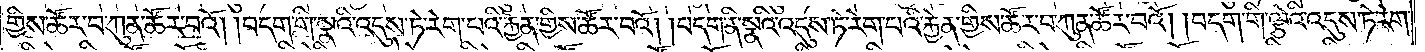གྱིས་ཚོར་བ་ཀུན་ཚོར་བའོ། །བདག་གི་སྣའི་འདུས་ཏེ་རེག་པའི་རྐྱེན་གྱིས་ཚོར་བའོ། །བདག་ནི་སྣའི་འདུས་ཏེ་རེག་པའི་རྐྱེན་གྱིས་ཚོར་བ་ཀུན་ཚོར་བའོ། །བདག་གི་ལྕེའི་འདུས་ཏེ་རེག་
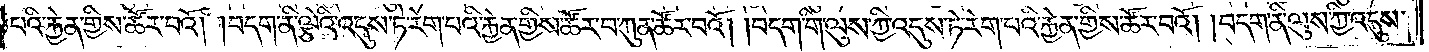པའི་རྐྱེན་གྱིས་ཚོར་བའོ། །བདག་ནི་ལྕེའི་འདུས་ཏེ་རེག་པའི་རྐྱེན་གྱིས་ཚོར་བ་ཀུན་ཚོར་བའོ། །བདག་གི་ལུས་ཀྱི་འདུས་ཏེ་རེག་པའི་རྐྱེན་གྱིས་ཚོར་བའོ། །བདག་ནི་ལུས་ཀྱི་འདུས་
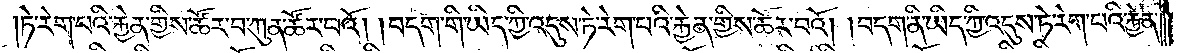ཏེ་རེག་པའི་རྐྱེན་གྱིས་ཚོར་བ་ཀུན་ཚོར་བའོ། །བདག་གི་ཡིད་ཀྱི་འདུས་ཏེ་རེག་པའི་རྐྱེན་གྱིས་ཚོར་བའོ། །བདག་ནི་ཡིད་ཀྱི་འདུས་ཏེ་རེག་པའི་རྐྱེན་
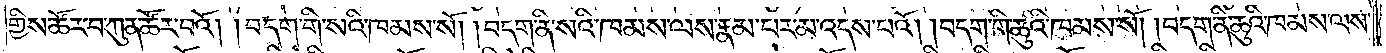གྱིས་ཚོར་བ་ཀུན་ཚོར་བའོ། །བདག་གི་སའི་ཁམས་སོ། །བདག་ནི་སའི་ཁམས་ལས་རྣམ་པར་མ་འདས་པའོ། །བདག་གི་ཆུའི་ཁམས་སོ། །བདག་ནི་ཆུའི་ཁམས་ལས་
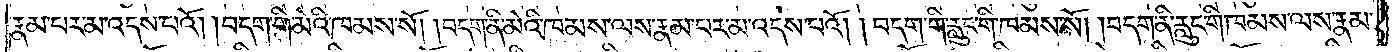རྣམ་པར་མ་འདས་པའོ། །བདག་གི་མེའི་ཁམས་སོ། །བདག་ནི་མེའི་ཁམས་ལས་རྣམ་པར་མ་འདས་པའོ། །བདག་གི་རླུང་གི་ཁམས་སོ། །བདག་ནི་རླུང་གི་ཁམས་ལས་རྣམ་
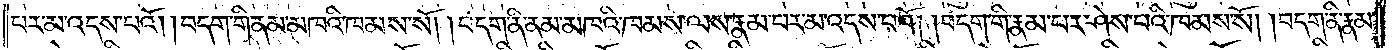པར་མ་འདས་པའོ། །བདག་གི་ནམ་མཁའི་ཁམས་སོ། །བདག་ནི་ནམ་མཁའི་ཁམས་ལས་རྣམ་པར་མ་འདས་པའོ། །བདག་གི་རྣམ་པར་ཤེས་པའི་ཁམས་སོ། །བདག་ནི་རྣམ་
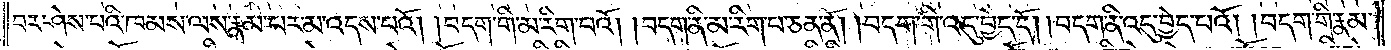པར་ཤེས་པའི་ཁམས་ལས་རྣམ་པར་མ་འདས་པའོ། །བདག་གི་མ་རིག་པའོ། །བདག་ནི་མ་རིག་པ་ཅན་ནོ། །བདག་གི་འདུ་བྱེད་དོ། །བདག་ནི་འདུ་བྱེད་པའོ། །བདག་གི་རྣམ་
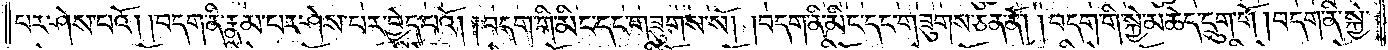པར་ཤེས་པའོ། །བདག་ནི་རྣམ་པར་ཤེས་པར་བྱེད་པའོ། །བདག་གི་མིང་དང་གཟུགས་སོ། །བདག་གི་མིང་དང་གཟུགས་ཅན་ནོ། །བདག་གི་སྐྱེ་མཆེད་དྲུག་གོ། །བདག་ནི་སྐྱེ་
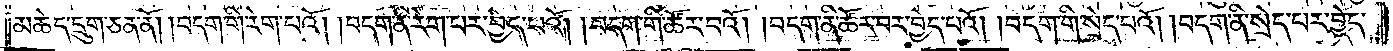མཆེད་དྲུག་ཅན་ནོ། །བདག་གི་རེག་པའོ། །བདག་ནི་རེག་པར་བྱེད་པའོ། །བདག་གི་ཚོར་བའོ། །བདག་ནི་ཚོར་བར་བྱེད་པའོ། །བདག་གི་སྲེད་པའོ། །བདག་ནི་སྲེད་པར་བྱེད་
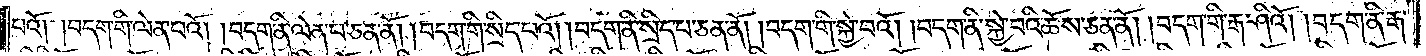པའོ། །བདག་གི་ལེན་པའོ། །བདག་ནི་ལེན་པ་ཅན་ནོ། །བདག་གི་སྲིད་པའོ། །བདག་ནི་སྲིད་པ་ཅན་ནོ། །བདག་གི་སྐྱེ་བའོ། །བདག་ནི་སྐྱེ་བའི་ཆོས་ཅན་ནོ། །བདག་གི་རྒ་ཤིའོ། །བདག་ནི་རྒ་
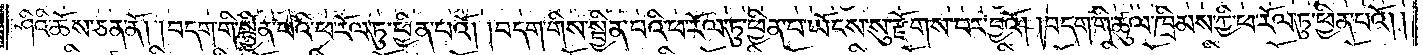ཤིའི་ཆོས་ཅན་ནོ། །བདག་གི་སྦྱིན་པའི་ཕ་རོལ་ཏུ་ཕྱིན་པའོ། །བདག་གིས་སྦྱིན་པའི་ཕ་རོལ་ཏུ་ཕྱིན་པ་ཡོངས་སུ་རྫོགས་པར་བྱའོ། །བདག་གི་ཚུལ་ཁྲིམས་ཀྱི་ཕ་རོལ་ཏུ་ཕྱིན་པའོ། །
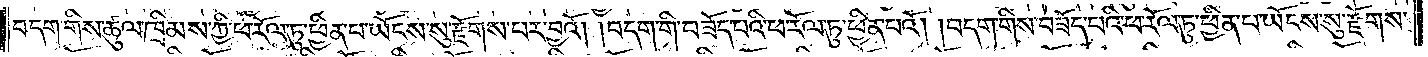བདག་གིས་ཚུལ་ཁྲིམས་ཀྱི་ཕ་རོལ་ཏུ་ཕྱིན་པ་ཡོངས་སུ་རྫོགས་པར་བྱའོ། །བདག་གི་བཟོད་པའི་ཕ་རོལ་ཏུ་ཕྱིན་པའོ། །བདག་གིས་བཟོད་པའི་ཕ་རོལ་ཏུ་ཕྱིན་པ་ཡོངས་སུ་རྫོགས་
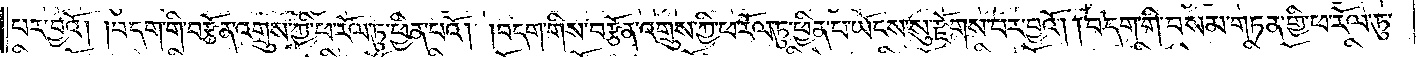པར་བྱའོ། །བདག་གི་བརྩོན་འགྲུས་ཀྱི་ཕ་རོལ་ཏུ་ཕྱིན་པའོ། །བདག་གིས་བརྩོན་འགྲུས་ཀྱི་ཕ་རོལ་ཏུ་ཕྱིན་པ་ཡོངས་སུ་རྫོགས་པར་བྱའོ། །བདག་གི་བསམ་གཏན་གྱི་ཕ་རོལ་ཏུ་
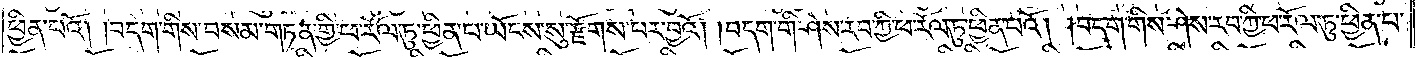ཕྱིན་པའོ། །བདག་གིས་བསམ་གཏན་གྱི་ཕ་རོལ་ཏུ་ཕྱིན་པ་ཡོངས་སུ་རྫོགས་པར་བྱའོ། །བདག་གི་ཤེས་རབ་ཀྱི་ཕ་རོལ་ཏུ་ཕྱིན་པའོ། །བདག་གིས་ཤེས་རབ་ཀྱི་ཕ་རོལ་ཏུ་ཕྱིན་པ་
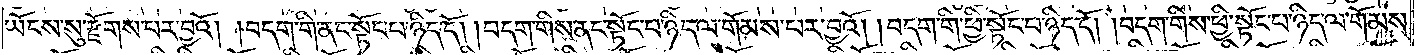ཡོངས་སུ་རྫོགས་པར་བྱའོ། །བདག་གི་ནང་སྟོང་པ་ཉིད་དོ། །བདག་གིས་ནང་སྟོང་པ་ཉིད་ལ་གོམས་པར་བྱའོ། །བདག་གི་ཕྱི་སྟོང་པ་ཉིད་དོ། །བདག་གིས་ཕྱི་སྟོང་པ་ཉིད་ལ་གོམས་
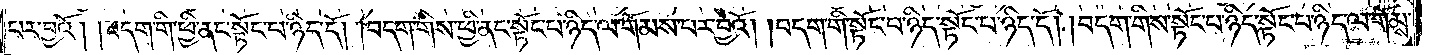པར་བྱའོ། །བདག་གི་ཕྱི་ནང་སྟོང་པ་ཉིད་དོ། །བདག་གིས་ཕྱི་ནང་སྟོང་པ་ཉིད་ལ་གོམས་པར་བྱའོ། །བདག་གི་སྟོང་པ་ཉིད་སྟོང་པ་ཉིད་དོ། །བདག་གིས་སྟོང་པ་ཉིད་སྟོང་པ་ཉིད་ལ་གོམས་
